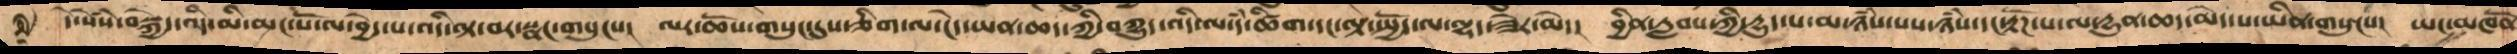དེ་སེཾས་བསྐྱེད་འདི་མི་མང་པོ་ལ་བྱེད་པ་འདི་ལྟ་བར་སྣང་གསུངས།  ལར་ཆོས་གསུང་དུས་ཅིག་ལ་ངེད་ཡན་ཆད་ཀྱི་བཀྱུད་འདི་ལ་དཾ་ཚིག་དང་ལྟ་སྤྱོད་ལ་ལྷད་ཟེར་མེད།  བྱིན་རླབས་ཀྱི་དྱུད་པ་མ་ཉཾས་པས་ཉཾས་དང་རྟོཌ་པ་ལ་དྱུན་ཆད་མེད་པ་ཡིན་གསུངས། ཡང་མཁནོ
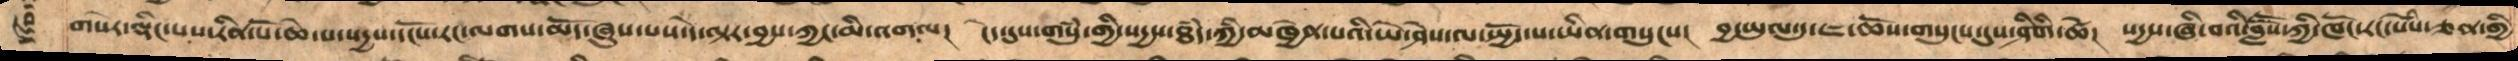གསེར་ལྡིང་པས་རིན་པོ་ཆེ་པ་སདྱས་དངོས་རང་ལགས་མོད་ཞུས་པས་དེ་ལྟར་བྱས་ཀྱང་མི་འགལ།  ངེད་དུས་གསུཾ་གྱི་སདྱས་ཐཾད་ཀྱི་མཁྱེན་པའི་ཡེ་ཤེས་ལ་སྤྱོད་པ་ཡིན་གསུངས།  བྱ་ཡུལ་དུ་ཇ་ཆོས་གསུངས་དུས་ཤིགི་ཚེ།  སདྱས་ཞི་བའི་བླཽས་ཀྱི་ཁོང་རང་སེཾས་ཅན་གྱི
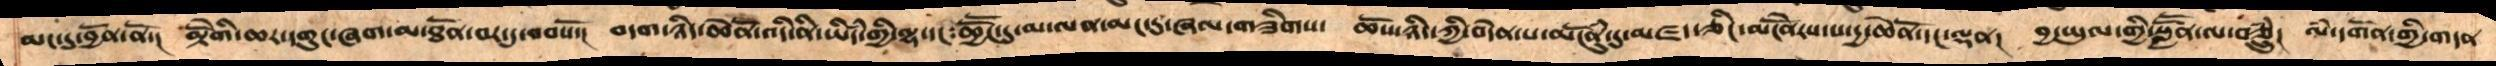མང་དུ་བྱོན་ནོ་།  མྟེོགི་ཆར་དགུང་ཞག་མ་ཐོན་བར་དུ་བབསོ།   བདག་ཉིད་ཆེནོ་འདི་ནི་ཡིདཾ་གྱི་ལྷ་དང་ཆྱཽང་དུ་མ་ལན་མང་དུ་ཞལ་གཟིགས།  ཆོས་ཉིད་ཀྱི་བདེན་པ་མངོནུཾ་དུ་མཛད་ཅིང་མངོནེརས་པ་དྱ་ཆེནོ་དང་ལྡན།  བྱ་ཡུལ་གྱི་སླཽན་ལ་བཅྲུཾ།  ལཾ་དགོན་གྱི་གདན
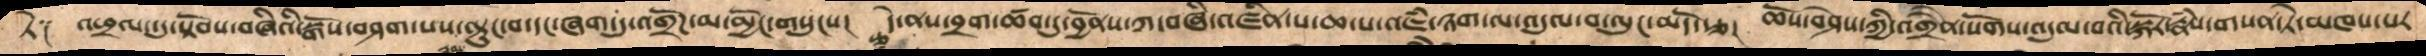ཏེ༑ འཕྲལ་དུ་སྟོབས་བཞིའི་སྒོས་བཤག་པས་ལྟུང་བ་དང་ཞག་དུ་འགྲོཌ་མ་མྱོང་གསུངས།  དེ་ནས་བྲག་ཚབ་དུ་བྱོནས་ཀ་བཞི་འཛིན་པ་ཆ་པ་འཇཾ་ཉག་ལ་འདུལ་བ་ལུང་མདོ་རྩ།།  ཆོས་བཤེས་ཀྱི་འགྲཻན་སོགས་འདུལ་བའི་སྐོར་རྣཾས་གསན་ཏེ་མཁས་པར
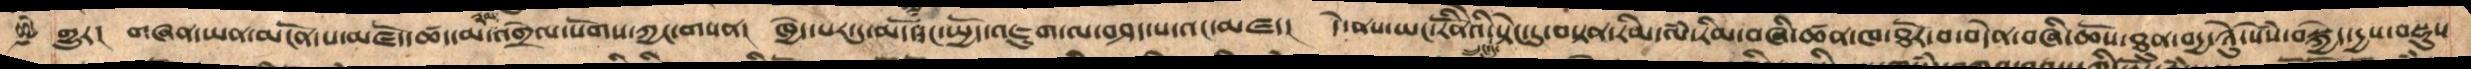གྱུར།  གཞན་ཡན་མངོན་པ་མཛོད་ཚད་མ་རྣམ་འགྲེལ་སོགས་ཀྱང་གསན།  ཁྱེད་པར་དུ་མདོ་དང་སྤྱོད་འཇུག་ལ་བཤད་པ་འང་མཛད།  དེ་ནས་ཡང་རིནོེའི་སྟེང་དུ་བསྟན་རིམ་ལཾ་རིམ་བཞི་ཚན་ཁ་ཐོར་བ་བདེན་བཞི་ཆོས་ཐུན་བདྱ་ཉིུ་སེཾས་བསྐྱེད་དྱས་བསྡུས
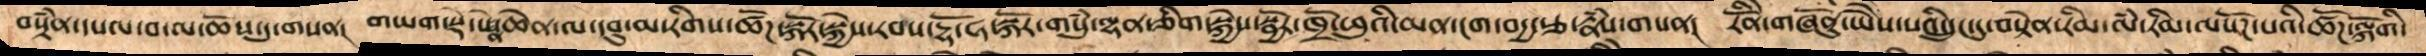བསྟཾན་དཔལ་བ་ལ་ཆོས་དུ་གསན།  གཡག་སྡེ་པེན་ཆེན་ལ་དབུ་མ་རིག་ཚོཌ་སྐོར་སྐྱེས་རབས་དྷོ་ཧ་སྐོར་གསུཾ་ལྷན་ཅིག་སྐྱེས་སྦྱོར་ཁྲོ་ཕུའི་མན་ངག་བདྱ་རྩ་རྣཾས་གསན།  རིནོེ་གཞོནུ་ཡཻས་པའི་དྲུང་དུ་བསྟེན་རིམ་ལཾ་རིམ་ལསོཌ་པའི་ཚོཌ་ལྐོགི་
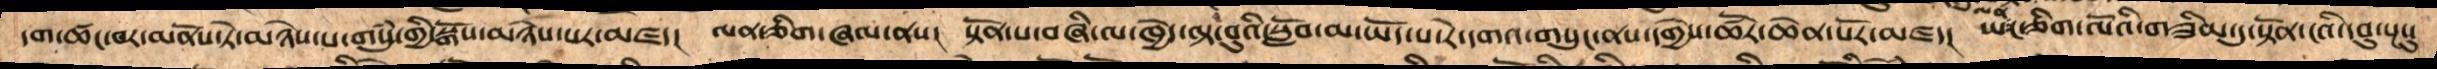དག་ཚང་བར་མནོས་ཏེ་མཉེས་པ་གསུཾ་གྱི་སྒོས་མཉེས་པར་མཛད།  ལན་ཅིག་ཞལ་ནས།  སྟོན་པ་བཞི་ལ་ཁྱེད་ལྟ་བུའི་སློབ་མ་ཡོད་པ་རེ་དགའ་གསུང་ནས་དགྱེས་ཚོར་ཆེན་པོར་མཛད།  ཡང་ལན་ཅིག་ལོའི་གཟིམ་དུ་སྟོན་ངའི་དབུ་སྔསུ
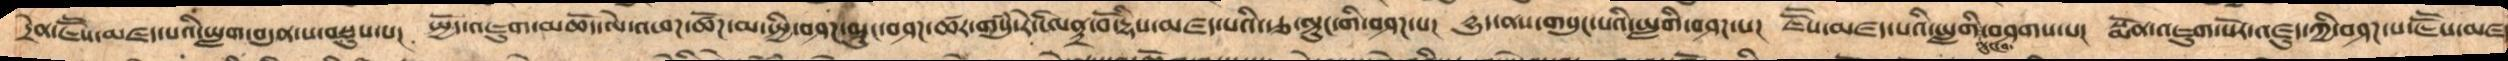དྲེན་ཇཽས་མཛད་པའི་ཡླག་བདུན་པ་བསྡུས་པ།  སྤྱོད་འཇུག་མཆོད་མེ་འཕཌ་ཚོཌ་མ་སྤྱི་བཤཌ་ལྟུང་བཤཌ་ཚར་གསུཾ་རེ་ཨིནྟྲ་བོ་དྷིས་མཛད་པའི་རྩ་ལྟུང་གི་བཤཌ་པ།  དྱུད་ནས་གསུང་པའི་ཡླགི་བཤཌ་པ།  ཇཽས་མཛད་པའི་ཡླགི་ལྟུང་བ་བཤགས་པ། སྨོན་འཇུག་སོར་འཛུད་ཀྱི་བཤཌ་པ་ཇཽས་མཛད་
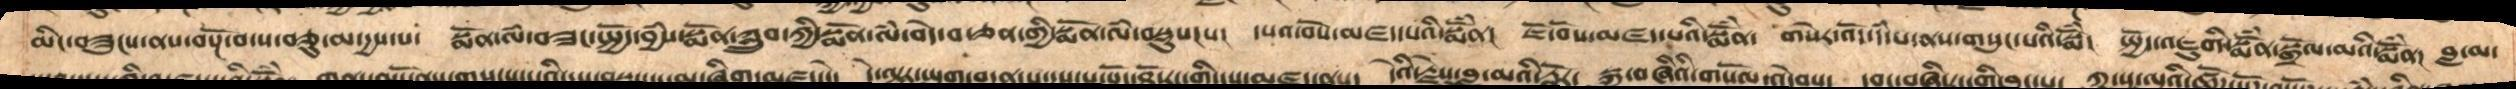མིང་བཟུངས་ནས་བསྔོ་བ་ས་བཅུ་མ་དྱས་པ་  སྨོན་ལཾ་བཟང་སྤྱོད་བྱཾས་སྨོན་ཀླྲུབ་ཀྱི་སྨོན་ལཾ་བདེ་བ་ཅན་གྱི་སྨོན་ལཾ་བསྡུས་་།  དཔའ་བོས་མཛད་པའི་སྨོཾན།  ཇོ་བོས་མཛད་པའི་སྨོཾན་  གསེར་འོད་དཾ་པ་ནས་གསུང་པའི་སྨོཾ།  སྤྱོད་འཇུགི་སྨོནཾ་སྒྲོལ་མའི་སྨོནཾ།  བླ་མ་
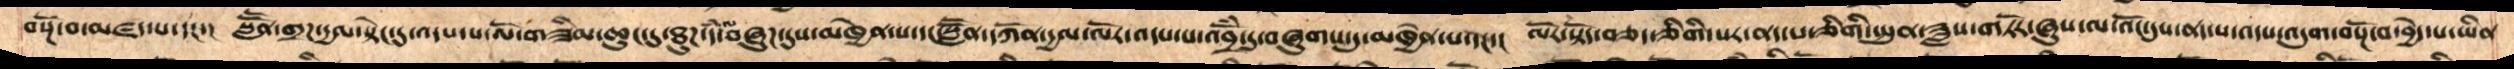བསྔོ་བ་མཛད་པ་དང་།  སླཽན་གྲཌ་དྱལ་སྟེང་དུ་འདས་པ་ལོ་གཟིམ་ཆུང་དུ་ཐུཌ་དཾ་ལ་བཞུཌ་དུས་མཁྱེན་པ་དང་སླཽན་དཀོན་དྱལ་ལོར་འདས་པ་འབྲོཾ་དུ་བཞུགས་དུ་མཁྱེན་པ་དང་།  ལོར་སྟོད་བཅད་ཅིགི་སར་ནད་པ་ཅིགི་སྤུན་ཟླས་གཏོར་ཞུས་ལ་འོང་དུས་ནད་པ་འདས་འདུག་བསྔོ་བ་བྱེད་པ་ཡིན
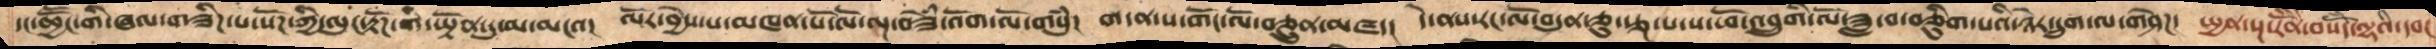དང་ཆྱཽང་གི་ཞལ་གཟིཌ་པ་སོཌ་ཀྱི་ལུང་རྟོཌ་གི་ཡྟོན་དུ་མ་མངའ།  ལོར་བྱེས་པ་མཁན་པོ་ལོ་ལྔ་བཟོཾ་འོག་ལོ་གསུཾ།  ག་ན་ས་གོང་ལོ་བཅྲུན་མཛད།  དེ་ནས་རང་ལོ་བདུན་ཅུ་རྩྔ་པ་ས་ཕོ་འབྲུགི་ལོ་ཟླ་བ་བཅིུག་པའི་ཉེར་དྲུག་ལ་གཤེཌ།  སྤྱན་སྔ་རིནོེ་བསོདཾ་ལྷའི་དབང
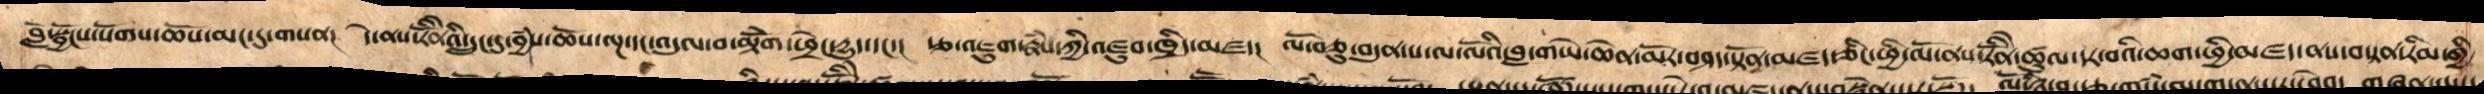བློ་སྦྱོངས་སོགས་ཆོས་མང་དུ་གསན།  དེ་ནས་རིནོེའི་དྲུང་དུ་བྱཾས་ཆོས་ལྔ་དང་འདུལ་བ་མྟེོག་ཕྲེང་དྱུད་དང་།  རྩ་འཇུག་རྣཾས་ཀྱི་འཛུབ་ཁྲིད་མཛད།  ལོ་བཅུ་བདུན་པ་ལ་ལོའི་བླ་གཡེ་ཆེན་མོར་བཤད་སྟོན་མཛད་ཅིང་ཕྱི་མོ་ནས་རིོནེ་ཚུལ་དར་བའི་ཆག་ཕྱི་མཛད་ནས་བསྟན་རིམ་གྱི
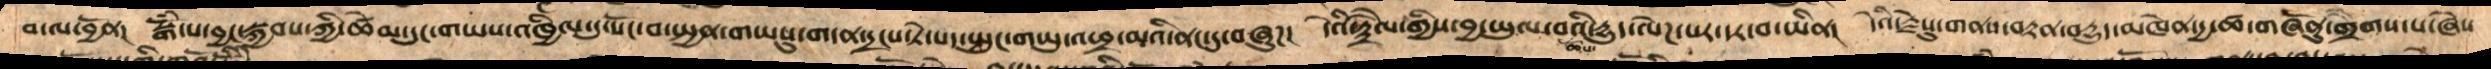བ་ལ་བྱོན།  སྒོཾ་པ་བྱང་སྐྱབས་ཀྱི་ཚེམ་དུང་གཡས་འཁྱིལ་དུ་སོང་བ་སྤྱན་གཡསུ་གདན་དྲངས་ཏེ་སད་སྤུང་གཡུ་འཕྲ་མའི་ནང་དུ་བཞུཌ། དེའི་རྟཻལ་གྱིས་བྱ་ཡུལ་བའི་ཆོས་དྱུད་ལེཌ་པར་དར་བ་ཡིན། དེའི་རྗེསུ་གནས་བརྟན་བདྱུད་མཁེན་དྱ་ཚ་གཞོནུ་གྲགས་པ་ཞེས
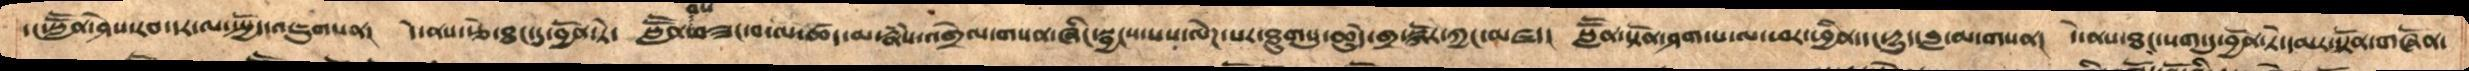དང་སླཽན་ཤེས་རབ་དར་ལ་སྤྱོད་འཇུགསན། དེ་ནས་རྩེ་ཐང་དུ་བྱོན་ཏེ་  སླཽན་བས་བཟང་བ་ལ་ཚད་མ་རྣཾས་འགྲེལ་གསན་ཞིང་སྦྱངས་པས་ལེཌ་པར་ཐུགསུ་ཆུདེ་གྲ་སྐོར་ཀྱང་མཛད། སླཽན་སྟོན་ཤག་པ་ལ་ཕར་ཕྱིན་དང་དྱུད་བླ་མ་གསན། དེ་ནས་ཐང་སག་དུ་བྱོན་ཏེ་དམར་སྟོན་གཞོན་
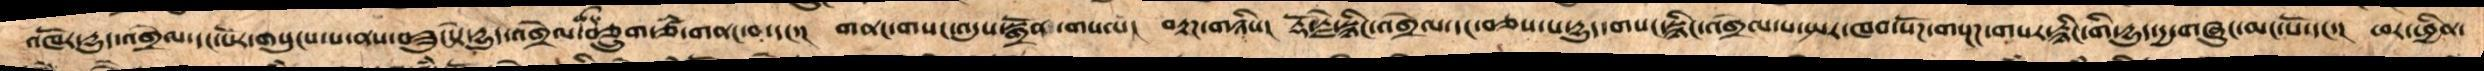འཁོར་དྱུད་འགྲེལ་དང་པོར་གསུངས་པ་ནས་བཟུངསྟེ་དྱུད་འགྲེལ་ཚར་བཅྲུག་ཙཾ་གནང་བ་དང་། གནང་གསང་འདུས་སྒྲོན་གསལ། བརྟཌ་གཉིས། རྡོ་རྗེ་སྙིང་འགྲེལ་དང་བཅས་པ་དྱུད་གསང་སྙིང་འགྲེལ་པ་སྤར་ཁབ་སོཌ་གསྔཌ་གསར་རྙིང་གི་དྱུད་དྱ་གཞུང་མང་པོ་དང་། ཕར་ཕྱིན་
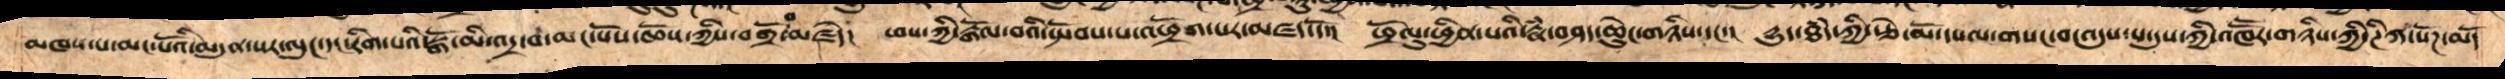མཁས་པ་མང་པོའི་མདུན་སར་ལུང་དང་རིག་པའི་སྒོ་མི་འདྲ་བ་མང་པོས་ཆོས་ཀྱིས་བགྲོ་བ་མཛདེ། ཕས་ཀྱི་རྒོལ་བའི་སྤོབས་པ་འཕྲོག་པར་མཛད་དོ་། ཕྲོལུ་ཕྱིན་པའི་རྣཾ་བཤད་ཆེུང་གཉིས་དང་། དྱུད་ཐཾད་ཀྱི་རྩེ་མོ་དཔལ་གསང་བ་འདུས་པ་དུས་ཀྱི་འཁཽརགཉིས་ཀྱི་ཊིཀ་སོཌ་མདོ་
